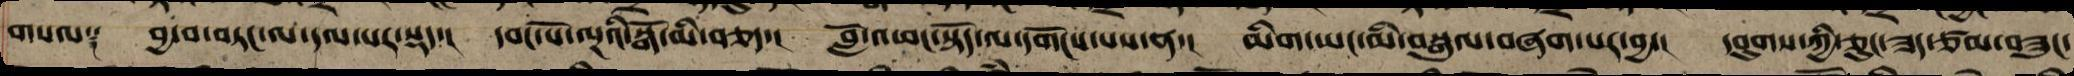གསལ༑ བྱ་བ་བཏང་ལ་དལ་པར་སྡད་། དབང་པོ་ལྔའི་སྒོ་མི་བཅད་། བློ་འཕང་སྟོད་ལ་དགོངས་པས་ན་། མིག་ཡང་མི་བསྒུལ་བཞག་པར་བྱ་། དབུགས་ཀྱི་ཅུང་ཟད་ཙམ་བཟུང་
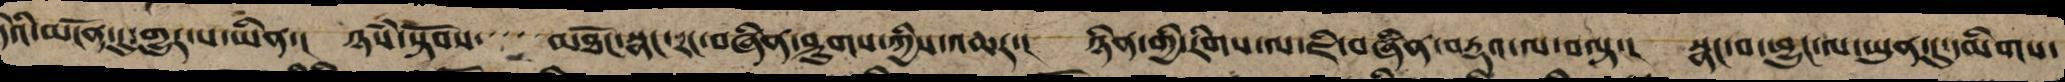དེའི་མངོན་དུ་གྱུར་པ་ཡིན་། ཉཾས་སྟོབས་་་་་མཐོང་སྣང་རང་བཞིན་ཤུགས་ཀྱིས་འཆར་། ཉིན་གྱི་རིགས་ལ་ཇི་བཞིན་བརྡའ་ལ་བལྟ་། སྣང་བ་ཕྱུང་ལ་ཡུན་དུ་དམིགས་
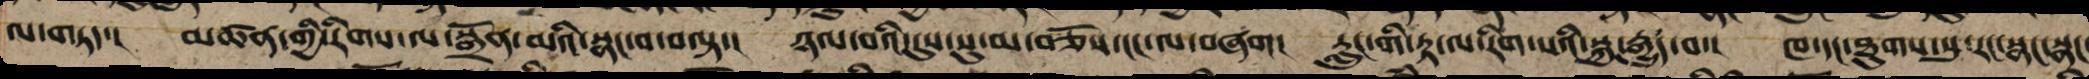ལ་གཏད་། མཚན་གྱི་རིགས་ལ་སྒྲོན་མའི་སྣང་བ་བལྟ་། ཉལ་བའི་དུས་སུ་མ་བཅོས་ངང་ལ་བཞག། རླུང་གི་རྟ་ལ་རིག་པའི་སྐུ་རྒྱུད་བ་། ཁ་དང་ཐུགས་སུ་རང་སྣང་སྣང་
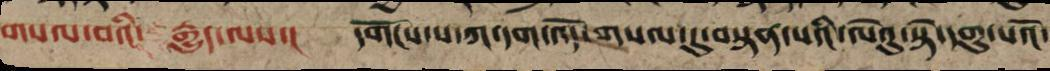གསལ་བའི་ རྒྱུད་ལས་། དགོངས་པ་ཀ་དག་འོད་གསལ་དུ་བསྟན་པའི་ལེའུ་སྟེ་དགུ་པའོ་
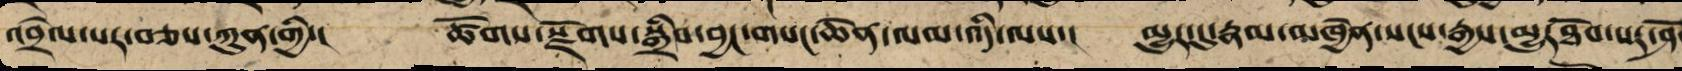འབྲེལ་པར་བཅས་ཀུན་གྱི་། ཚོགས་སྫོགས་སྒྲིབ་བྱང་གསང་ཆེན་ལམ་འདི་ལས་། མྱུར་དུ་རྣམ་མཁྱེན་སངས་རྒྱས་ཐོབ་པར་ཤོ
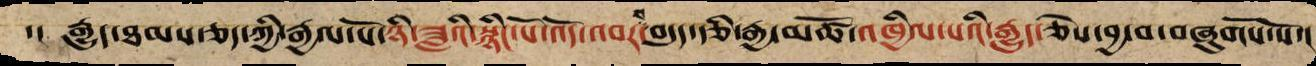་། རྒྱུད་ཐམས་ཅད་ཀྱི་རྒྱལ་པོ་ཉི་ཟླའི་སྙིང་པོ་འོད་འབར་བདུད་རྩིའི་རྒྱ་མཚོ་འཁྱིལ་པའི་རྒྱུད་ཅེས་བྱ་བ་བཞུགས་སོ་།
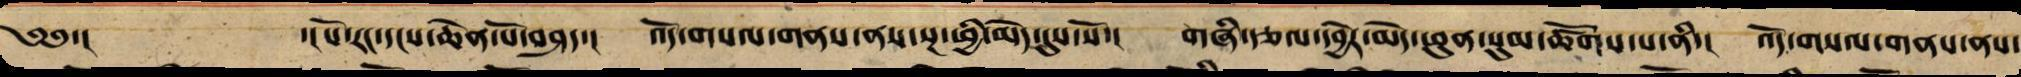༄༅་། ་། པོ་རང་དངས་ཆེན་པོ་བཤད་། འོད་གསལ་གནས་ནས་སྔ་ཕྱི་མེད་དུས་སོ་། གཞི་རྩལ་དབྱེར་མེད་ཕུན་སུམ་ཚོགས་པ་ནི་། འོད་གསལ་གནས་ནས་
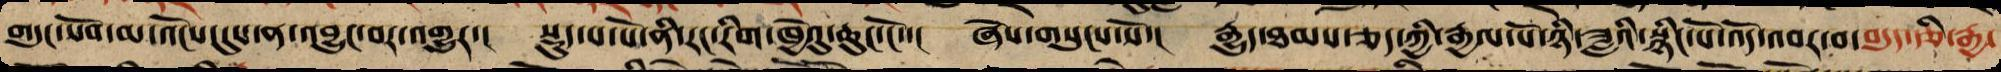གདུང་སོབ་མ་འོངས་དུས་ན་འབྱུང་བར་འགྱུར་། སྡུད་པ་པོ་ནི་རང་རིག་ཁྱེའུ་ཆུང་ངོ་་། ཞེས་གསུངས་སོ་། རྒྱུད་ཐམས་ཅད་ཀྱི་རྒྱལ་པོ་ཉི་ཟླའི་སྙིང་པོ་འོད་འབར་བ་བདུད་རྩིའི་རྒྱ་
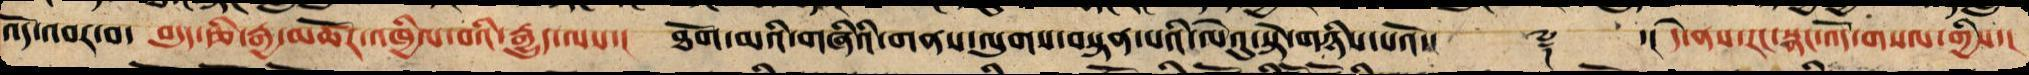འོད་འབར་བ་ བདུད་རྩིའི་རྒྱ་མཚོར་འཁྱིལ་པའི་རྒྱུད་ལས་། ཐོག་མའི་གཞིའི་གནས་ལུགས་བསྟན་པའི་ལེའུ་སྟེ་གཉིས་པའོ་།། ༈ ་། དེ་ནས་རང་སྣང་འོད་གསལ་གྱིས་།
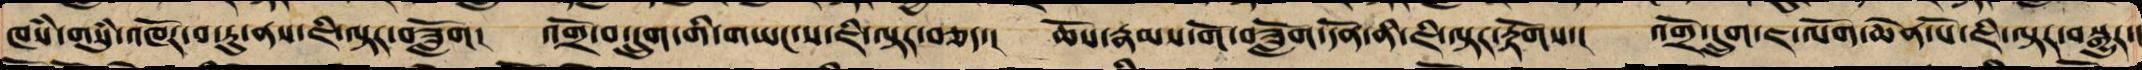ཁཾས་གསུཾ་འཁོར་བ་རུ་ནས་ཇི་ལྟར་བཟློག། འགྲོ་བ་དྲུག་གི་གཡང་ས་ཇི་ལྟར་བཅད་། ཆོས་རྣམས་གོ་ཟློག་དོན་ནི་ཇི་ལྟར་རྟོགས་། འགྲོ་དྲུག་ཇ་ལོག་ཆེན་པོ་ཇི་ལྟར་བསྒྱུར་།
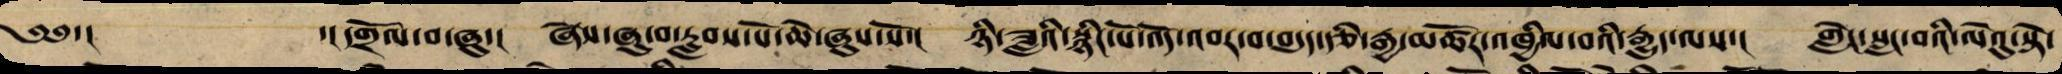༄༅་། ་།དགྲོལ་བ་ཞུ་། ཞེས་ཞུ་བ་རླབས་པོ་ཆེ་ཞུས་སོ་། ཉི་ཟླའི་སྙིང་པོ་འོད་འབར་བ་བདུད་རྩིའི་རྒྱ་མཚོར་འཁྱིལ་བའི་རྒྱུད་ལས་། གླེང་སླང་བའི་ལེའུ་སྟེ་
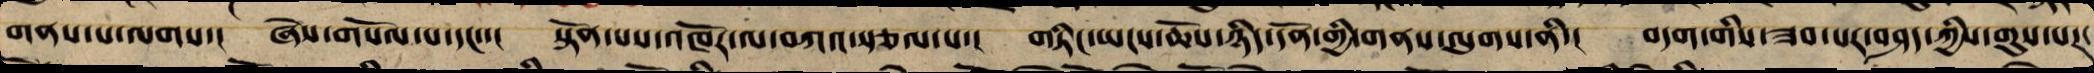གནས་པ་ལགས་། ཞེས་གསོལ་པ་དང་་། སྟོན་པས་འཁོར་ལ་བཀའ་སྩལ་པ་། གཏིང་ཡངས་ཆོས་ཉིད་དོན་གྱི་གནས་ལུགས་ནི་། བདག་གིས་ཟབ་པར་བཤད་ཀྱིས་གུས་པར་
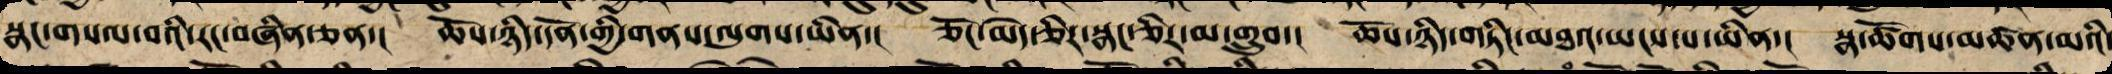སྣང་གསལ་བའི་རང་བཞིན་ཅན་། ཆོས་ཉིད་དོན་གྱི་གནས་ལུགས་ཡིན་། ཅོང་མེད་ཅིར་སྣང་ཅིར་མ་གྲུབ་། ཆོས་ཉིད་གཏིང་མཐའ་ཡངས་པ་ཡིན་། སྣ་ཚོགས་མཚན་མའི་
